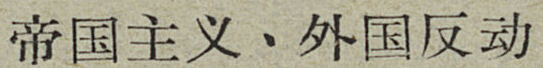帝国主义、外国反动
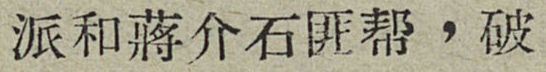派和蔣介石匪帮，破
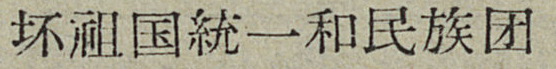坏祖国統一和民族团
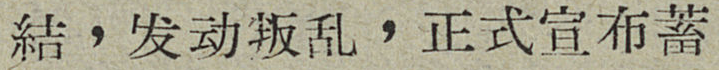結，发动叛乱，正式宣布蓄
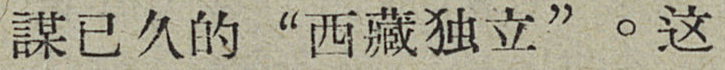謀已久的“西藏独立”。这
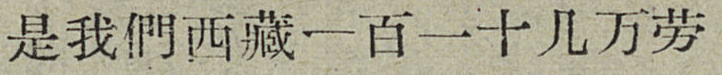是我們西藏一百一十几万劳
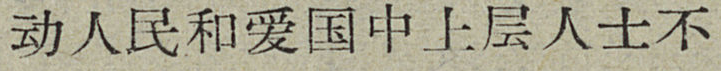动人民和爱国中上层人士不
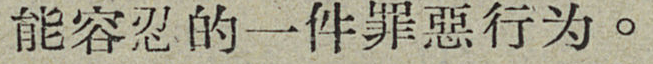能容忍的一件罪惡行为。
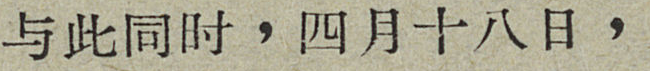与此同时，四月十八日，
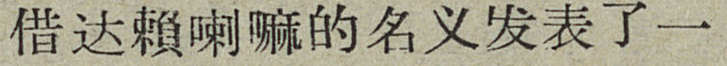借达賴喇嘛的名义发表了一
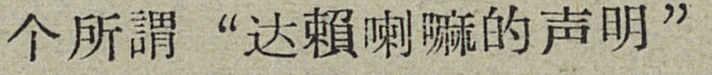各所謂“达賴喇嘛的声明”
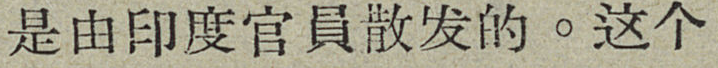是由印度官員散发的。这个
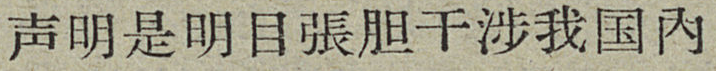声明是明目張胆干涉我国内
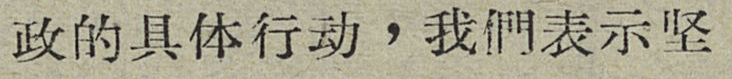政的具体行动，我們表示坚
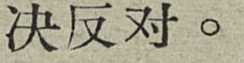决反对。
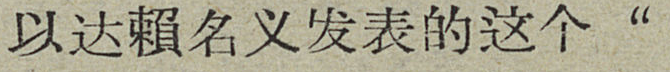以达賴名义发表的这个“
